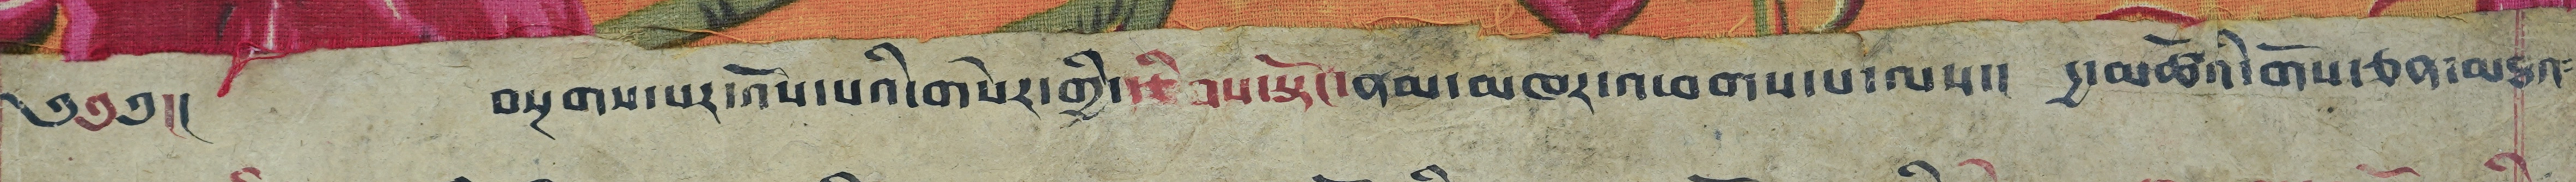༄༅༅།། བསྔགས་པར་འོས་པའི་གསེར་གྱི་རྩིབས་སྟོང་ནམ་མཁར་འཕགས་པ་ལས།། རྒྱ་མཚོའི་གོས་ཅན་མཐའ་
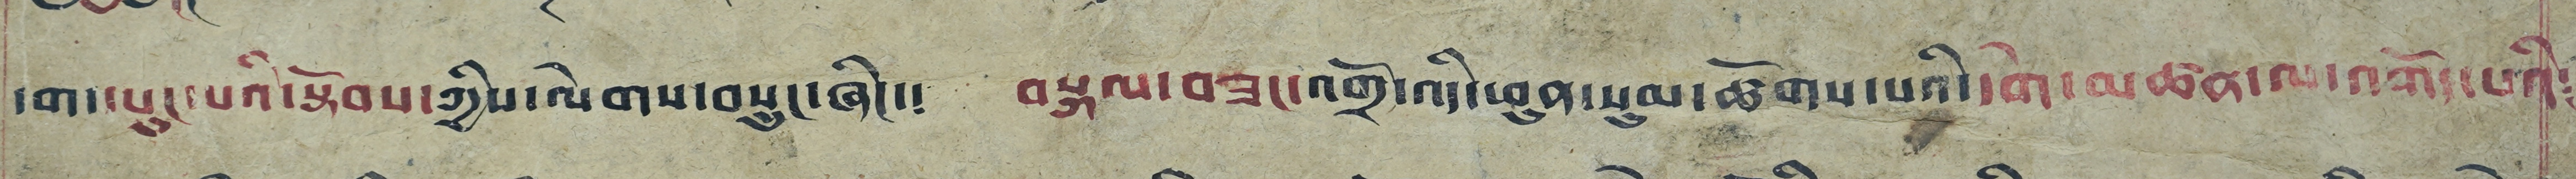དག་དཔུང་པའི་སྟོབས་ཀྱིས་ལེགས་བསྲུང་ཞིང་༴ བསྐལ་བཟང་འགྲོ་འདི་ཕུན་སུམ་ཚོགས་པའི་དགེ་མཚན་ལ་འགོད་པའི༴
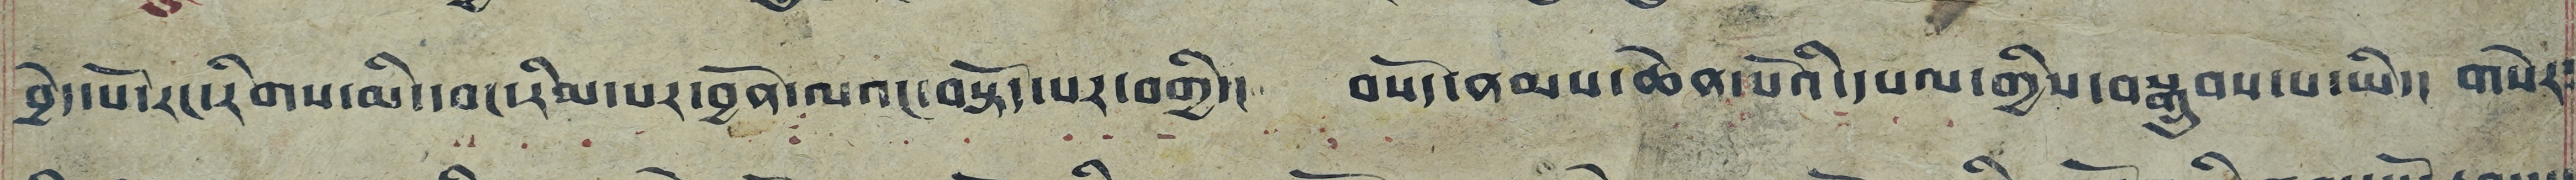བྱེད་པོ་རང་རིགས་མི་དབང་རིམ་པར་བྱོན་ལའང་བསྟོད་པར་བགྱི། བསོད་ནམས་ཆེན་པོའི་དཔལ་གྱིས་བསྒྲུབས་པ་ཡི། གསེར་
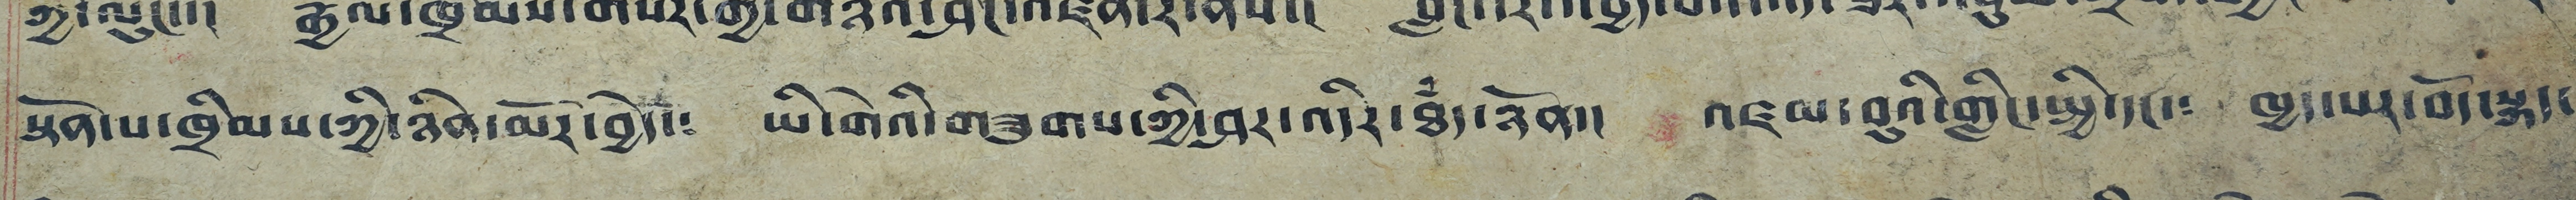སྟོན་པ་ཁྲིམས་ཀྱི་ཉིན་མོར་བྱེད་༴ ཡི་གེའི་གཟུགས་ཀྱི་ཤར་འདིར་ཐཾད་ཉོན།། འཛམ་བུའི་གླིང་སྤྱི་དང་༴ ཁྱད་པར་བོད་སྐད་
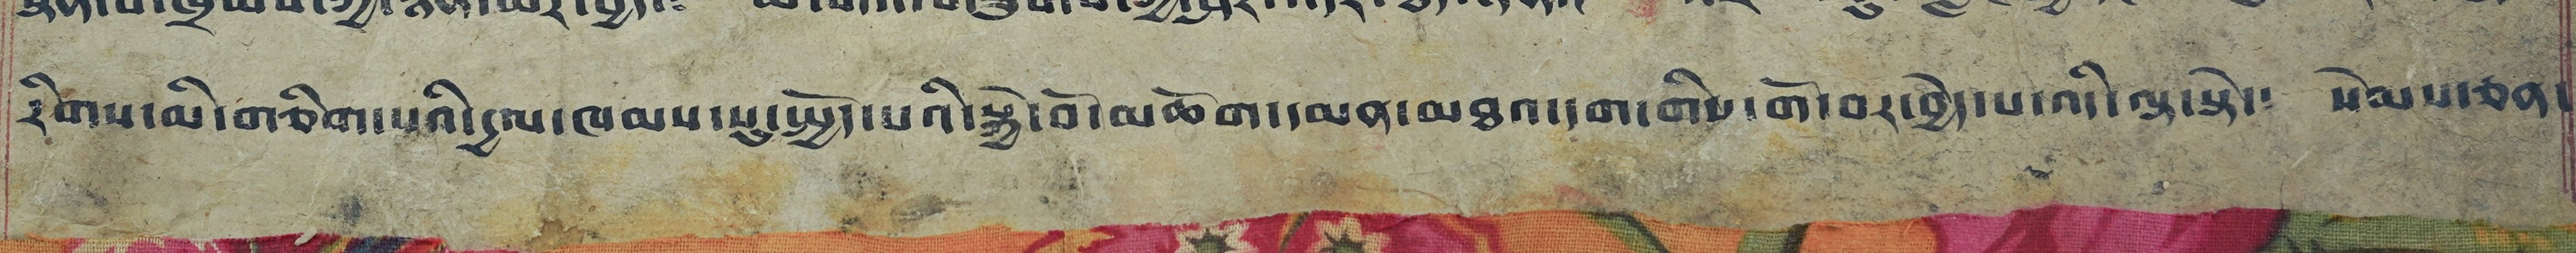རིགས་མི་གཅིག་པའི་དྱལ་ཁམས་སུ་སྤྱོད་པའི་སྐྱེ་བོ་མཆོག་དམན་མཐའ་དག་གིས་གོ་བར་བྱེད་པ་འདི་ལྟ་སྟེ་༴ སེམས་ཅན་
